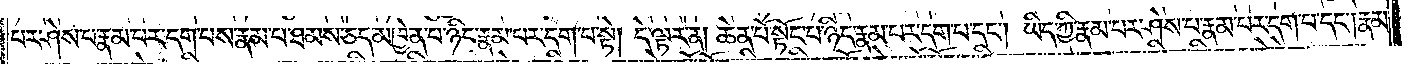པར་ཤེས་པ་རྣམ་པར་དག་པས་རྣམ་པ་ཐམས་ཅད་མཁྱེན་པ་ཉིད་རྣམ་པར་དག་པ་སྟེ། དེ་ལྟར་ན། ཆེན་པོ་སྟོང་པ་ཉིད་རྣམ་པར་དག་པ་དང༌། ཡིད་ཀྱི་རྣམ་པར་ཤེས་པ་རྣམ་པར་དག་པ་དང༌། རྣམ་
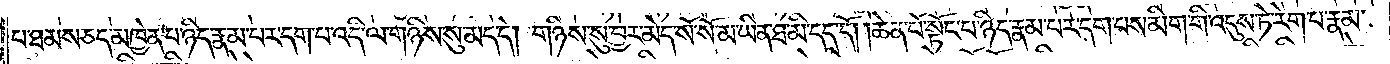པ་ཐམས་ཅད་མཁྱེན་པ་ཉིད་རྣམ་པར་དག་པ་ཉིད་ལ་གཉིས་སུ་མེད་དེ། གཉིས་སུ་བྱར་མེད་སོ་སོ་མ་ཡིན་ཐ་མི་དད་དོ། །ཆེན་པོ་སྟོང་པ་ཉིད་རྣམ་པར་དག་པས་མིག་གི་འདུས་ཏེ་རེག་པ་རྣམ་
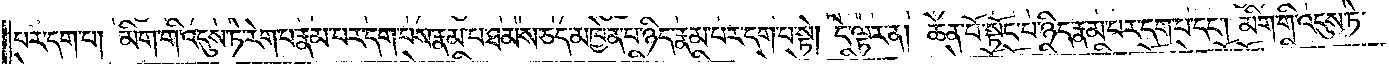པར་དག་པ། མིག་གི་འདུས་ཏེ་རེག་པ་རྣམ་པར་དག་པས་རྣམ་པ་ཐམས་ཅད་མཁྱེན་པ་ཉིད་རྣམ་པར་དག་པ་སྟེ། དེ་ལྟར་ན། ཆེན་པོ་སྟོང་པ་ཉིད་རྣམ་པར་དག་པ་དང༌། མིག་གི་འདུས་ཏེ་
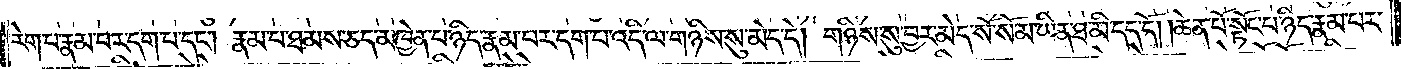རེག་པ་རྣམ་པར་དག་པ་དང༌། རྣམ་པ་ཐམས་ཅད་མཁྱེན་པ་ཉིད་རྣམ་པར་དག་པ་འདི་ལ་གཉིས་སུ་མེད་དེ། གཉིས་སུ་བྱར་མེད་སོ་སོ་མ་ཡིན་ཐ་མི་དད་དོ། །ཆེན་པོ་སྟོང་པ་ཉིད་རྣམ་པར་
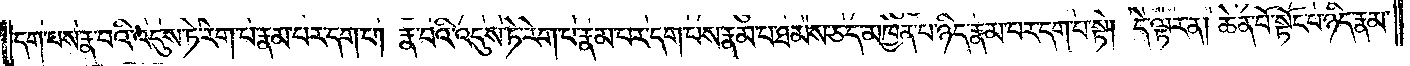དག་པས་རྣ་བའི་འདུས་ཏེ་རེག་པ་རྣམ་པར་དག་པ། རྣ་བའི་འདུས་ཏེ་རེག་པ་རྣམ་པར་དག་པས་རྣམ་པ་ཐམས་ཅད་མཁྱེན་པ་ཉིད་རྣམ་པར་དག་པ་སྟེ། དེ་ལྟར་ན། ཆེན་པོ་སྟོང་པ་ཉིད་རྣམ་
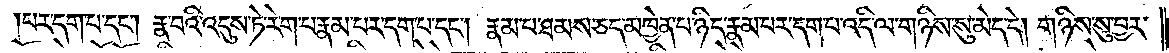པར་དག་པ་དང༌། རྣ་བའི་འདུས་ཏེ་རེག་པ་རྣམ་པར་དག་པ་དང༌། རྣམ་པ་ཐམས་ཅད་མཁྱེན་པ་ཉིད་རྣམ་པར་དག་པ་འདི་ལ་གཉིས་སུ་མེད་དེ། གཉིས་སུ་བྱར་
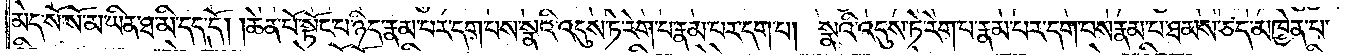མེད་སོ་སོ་མ་ཡིན་ཐ་མི་དད་དོ། །ཆེན་པོ་སྟོང་པ་ཉིད་རྣམ་པར་དག་པས་སྣའི་འདུས་ཏེ་རེག་པ་རྣམ་པར་དག་པ། སྣའི་འདུས་ཏེ་རེག་པ་རྣམ་པར་དག་པས་རྣམ་པ་ཐམས་ཅད་མཁྱེན་པ་
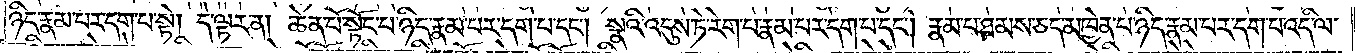ཉིད་རྣམ་པར་དག་པ་སྟེ། དེ་ལྟར་ན། ཆེན་པོ་སྟོང་པ་ཉིད་རྣམ་པར་དག་པ་དང༌། སྣའི་འདུས་ཏེ་རེག་པ་རྣམ་པར་དག་པ་དང༌། རྣམ་པ་ཐམས་ཅད་མཁྱེན་པ་ཉིད་རྣམ་པར་དག་པ་འདི་ལ་
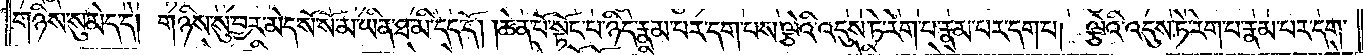གཉིས་སུ་མེད་དེ། གཉིས་སུ་བྱར་མེད་སོ་སོ་མ་ཡིན་ཐ་མི་དད་དོ། །ཆེན་པོ་སྟོང་པ་ཉིད་རྣམ་པར་དག་པས་ལྕེའི་འདུས་ཏེ་རེག་པ་རྣམ་པར་དག་པ། ལྕེའི་འདུས་ཏེ་རེག་པ་རྣམ་པར་དག་
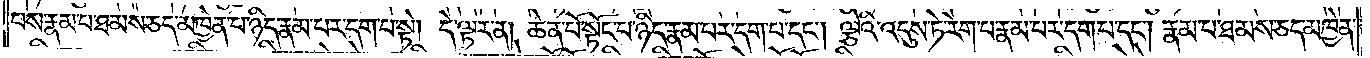པས་རྣམ་པ་ཐམས་ཅད་མཁྱེན་པ་ཉིད་རྣམ་པར་དག་པ་སྟེ། དེ་ལྟར་ན། ཆེན་པོ་སྟོང་པ་ཉིད་རྣམ་པར་དག་པ་དང༌། ལྕེའི་འདུས་ཏེ་རེག་པ་རྣམ་པར་དག་པ་དང༌། རྣམ་པ་ཐམས་ཅད་མཁྱེན་
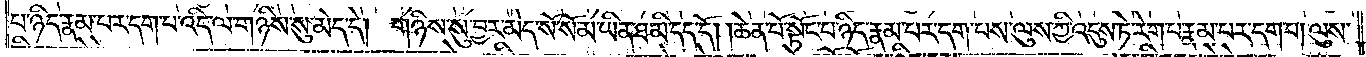པ་ཉིད་རྣམ་པར་དག་པ་འདི་ལ་གཉིས་སུ་མེད་དེ། གཉིས་སུ་བྱར་མེད་སོ་སོ་མ་ཡིན་ཐ་མི་དད་དོ། །ཆེན་པོ་སྟོང་པ་ཉིད་རྣམ་པར་དག་པས་ལུས་ཀྱི་འདུས་ཏེ་རེག་པ་རྣམ་པར་དག་པ། ལུས་
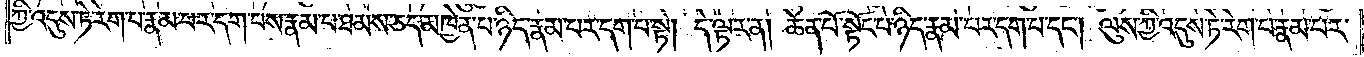ཀྱི་འདུས་ཏེ་རེག་པ་རྣམ་པར་དག་པས་རྣམ་པ་ཐམས་ཅད་མཁྱེན་པ་ཉིད་རྣམ་པར་དག་པ་སྟེ། དེ་ལྟར་ན། ཆེན་པོ་སྟོང་པ་ཉིད་རྣམ་པར་དག་པ་དང༌། ལུས་ཀྱི་འདུས་ཏེ་རེག་པ་རྣམ་པར་
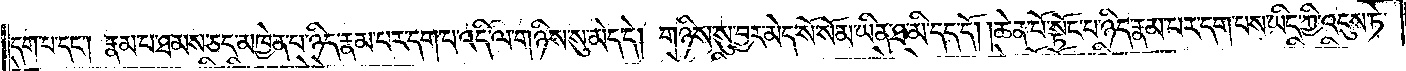དག་པ་དང༌། རྣམ་པ་ཐམས་ཅད་མཁྱེན་པ་ཉིད་རྣམ་པར་དག་པ་འདི་ལ་གཉིས་སུ་མེད་དེ། གཉིས་སུ་བྱར་མེད་སོ་སོ་མ་ཡིན་ཐ་མི་དད་དོ། །ཆེན་པོ་སྟོང་པ་ཉིད་རྣམ་པར་དག་པས་ཡིད་ཀྱི་འདུས་ཏེ་
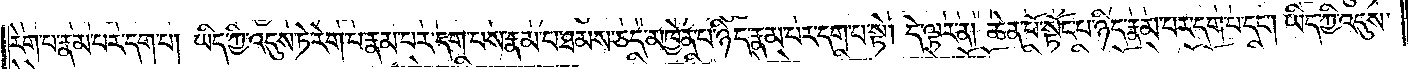རེག་པ་རྣམ་པར་དག་པ། ཡིད་ཀྱི་འདུས་ཏེ་རེག་པ་རྣམ་པར་དག་པས་རྣམ་པ་ཐམས་ཅད་མཁྱེན་པ་ཉིད་རྣམ་པར་དག་པ་སྟེ། དེ་ལྟར་ན། ཆེན་པོ་སྟོང་པ་ཉིད་རྣམ་པར་དག་པ་དང༌། ཡིད་ཀྱི་འདུས་
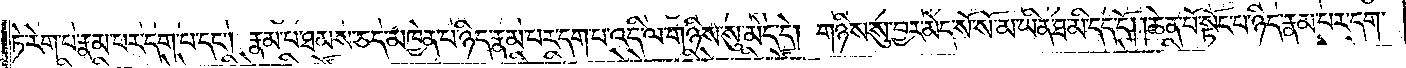ཏེ་རེག་པ་རྣམ་པར་དག་པ་དང༌། རྣམ་པ་ཐམས་ཅད་མཁྱེན་པ་ཉིད་རྣམ་པར་དག་པ་འདི་ལ་གཉིས་སུ་མེད་དེ། གཉིས་སུ་བྱར་མེད་སོ་སོ་མ་ཡིན་ཐ་མི་དད་དོ། །ཆེན་པོ་སྟོང་པ་ཉིད་རྣམ་པར་དག་
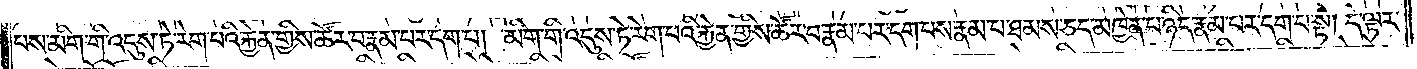པས་མིག་གི་འདུས་ཏེ་རེག་པའི་རྐྱེན་གྱིས་ཚོར་བ་རྣམ་པར་དག་པ། མིག་གི་འདུས་ཏེ་རེག་པའི་རྐྱེན་གྱིས་ཚོར་བ་རྣམ་པར་དག་པས་རྣམ་པ་ཐམས་ཅད་མཁྱེན་པ་ཉིད་རྣམ་པར་དག་པ་སྟེ། དེ་ལྟར་
